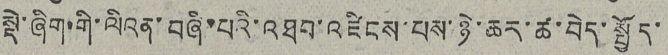སྡེ་ཞིག་གི་ལིའན་བཞི་པའི་འཐབ་འཛིངས་པས་ཉེ་ཆར་ཚ་བེད་སྤྱོད་
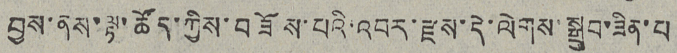བྱས་ནས་ལྟ་ཚོད་ཀྱིས་བཟོས་པའི་འབར་རྫས་དེ་ལེགས་སྒྲུབ་ཟིན་པ།
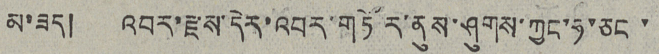མ་ཟད། འབར་རྫས་དེར་འབར་གཏོར་ནུས་ཤུགས་ཀྱང་ཧ་ཅང་་
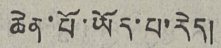ཆེན་པོ་ཡོད་པ་རེད།
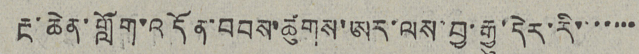རྔ་ཆེན་གློག་འདོན་བབས་ཚུགས་ཨར་ལས་བྱ་རྒྱུ་དེར་རི་་་་་་་
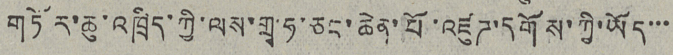གཏོར་ཆུ་འཁྲིད་ཀྱི་ལས་གྲྭ་ཧ་ཅང་ཆེན་པོ་འཛུཌ་དགོས་ཀྱི་ཡོད་་་
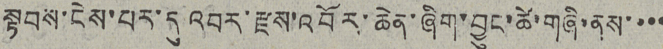སྟབས་ངེས་པར་དུ་འབར་རྫས་འབོར་ཆེན་ཞིག་བྱུང་ཚེ་གཞི་ནས་་་་
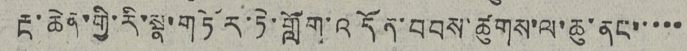རྔ་ཆེན་གྱི་རི་སྣ་གཏོར་ཏེ་གློག་འདོན་བབས་ཚུགས་ལ་ཆུ་ནང་་་་་
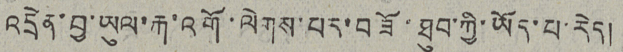འདྲེན་བྱ་ཡུལ་རྐུ་འགོ་ལེགས་པར་བཟོ་ཐུབ་ཀྱི་ཡོད་པ་རེད།
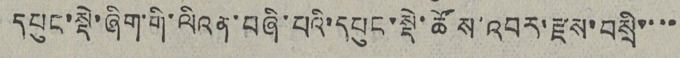དཔུང་སྡེ་ཞིག་གི་ལིའན་བཞི་པའི་དཔུང་སྡེ་ཚོས་འབར་རྫས་བསྲི་་་་
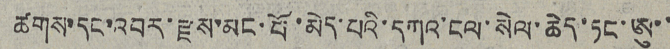ཚགས་དང་འབར་རྫས་མང་པོ་མེད་པའི་དཀའ་ངལ་སེལ་ཆེད་ཏང་ཨུ་་
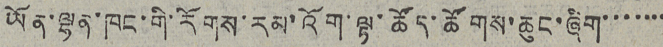ཡོན་ལྷན་ཁང་གི་རོགས་རམ་འོག་ལྟ་ཚོད་ཚོགས་ཆུང་ཞིག་་་་་་་
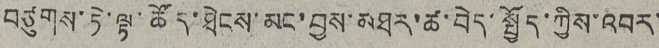བཙུགས་ཏེ་ལྟ་ཚོད་ཐེངས་མང་བྱས་མཐར་ཚ་བེད་སྤྱོད་ཀྱིས་འབར་
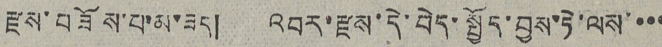རྫས་བཟོས་པ་མ་ཟད།  འབར་རྫས་དེ་བེད་སྤྱོད་བྱས་ཏེ་ལས་་་་
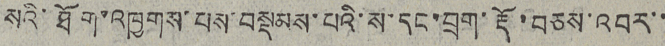སའི་ཐོག་འཁྱགས་པས་བསྡམས་པའི་ས་དང་བྲག་རྡོ་བཅས་འབར་་
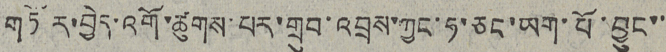གཏོར་བྱེད་འགོ་ཚུགས་པར་གྲུབ་འབྲས་ཀྱང་ཧ་ཅང་ཡག་པོ་བྱུང་་
